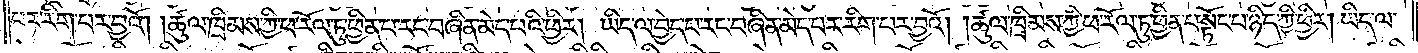པར་རིག་པར་བྱའོ། །ཚུལ་ཁྲིམས་ཀྱི་ཕ་རོལ་ཏུ་ཕྱིན་པ་རང་བཞིན་མེད་པའི་ཕྱིར། ཡིད་ལ་བྱེད་པ་རང་བཞིན་མེད་པར་རིག་པར་བྱའོ། །ཚུལ་ཁྲིམས་ཀྱི་ཕ་རོལ་ཏུ་ཕྱིན་པ་སྟོང་པ་ཉིད་ཀྱི་ཕྱིར། ཡིད་ལ་
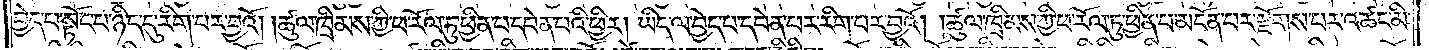བྱེད་པ་སྟོང་པ་ཉིད་དུ་རིག་པར་བྱའོ། །ཚུལ་ཁྲིམས་ཀྱི་ཕ་རོལ་ཏུ་ཕྱིན་པ་དབེན་པའི་ཕྱིར། ཡིད་ལ་བྱེད་པ་དབེན་པར་རིག་པར་བྱའོ། །ཚུལ་ཁྲིམས་ཀྱི་ཕ་རོལ་ཏུ་ཕྱིན་པ་མངོན་པར་རྫོགས་པར་འཚང་མི་
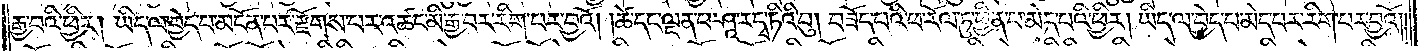རྒྱ་བའི་ཕྱིར། ཡིད་ལ་བྱེད་པ་མངོན་པར་རྫོགས་པར་འཚང་མི་རྒྱ་བར་རིག་པར་བྱའོ། །ཚེ་དང་ལྡན་པ་ཤཱ་ར་དྭ་ཏིའི་བུ། བཟོད་པའི་ཕ་རོལ་ཏུ་ཕྱིན་པ་མེད་པའི་ཕྱིར། ཡིད་ལ་བྱེད་པ་མེད་པར་རིག་པར་བྱའོ། །
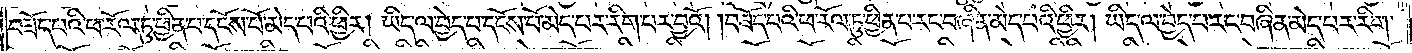བཟོད་པའི་ཕ་རོལ་ཏུ་ཕྱིན་པ་དངོས་པོ་མེད་པའི་ཕྱིར། ཡིད་ལ་བྱེད་པ་དངོས་པོ་མེད་པར་རིག་པར་བྱའོ། །བཟོད་པའི་ཕ་རོལ་ཏུ་ཕྱིན་པ་རང་བཞིན་མེད་པའི་ཕྱིར། ཡིད་ལ་བྱེད་པ་རང་བཞིན་མེད་པར་རིག་
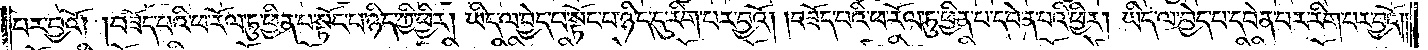པར་བྱའོ། །བཟོད་པའི་ཕ་རོལ་ཏུ་ཕྱིན་པ་སྟོང་པ་ཉིད་ཀྱི་ཕྱིར། ཡིད་ལ་བྱེད་པ་སྟོང་པ་ཉིད་དུ་རིག་པར་བྱའོ། །བཟོད་པའི་ཕ་རོལ་ཏུ་ཕྱིན་པ་དབེན་པའི་ཕྱིར། ཡིད་ལ་བྱེད་པ་དབེན་པར་རིག་པར་བྱའོ། །
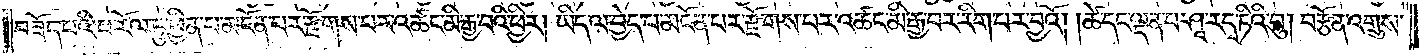བཟོད་པའི་ཕ་རོལ་ཏུ་ཕྱིན་པ་མངོན་པར་རྫོགས་པར་འཚང་མི་རྒྱ་བའི་ཕྱིར། ཡིད་ལ་བྱེད་པ་མངོན་པར་རྫོགས་པར་འཚང་མི་རྒྱ་བར་རིག་པར་བྱའོ། །ཚེ་དང་ལྡན་པ་ཤཱ་ར་དྭ་ཏིའི་བུ། བརྩོན་འགྲུས་
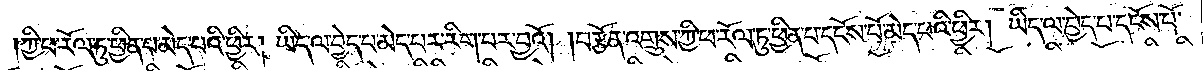ཀྱི་ཕ་རོལ་ཏུ་ཕྱིན་པ་མེད་པའི་ཕྱིར། ཡིད་ལ་བྱེད་པ་མེད་པར་རིག་པར་བྱའོ། །བརྩོན་འགྲུས་ཀྱི་ཕ་རོལ་ཏུ་ཕྱིན་པ་དངོས་པོ་མེད་པའི་ཕྱིར། ཡིད་ལ་བྱེད་པ་དངོས་པོ་
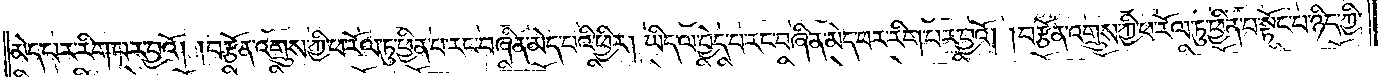མེད་པར་རིག་པར་བྱའོ། །བརྩོན་འགྲུས་ཀྱི་ཕ་རོལ་ཏུ་ཕྱིན་པ་རང་བཞིན་མེད་པའི་ཕྱིར། ཡིད་ལ་བྱེད་པ་རང་བཞིན་མེད་པར་རིག་པར་བྱའོ། །བརྩོན་འགྲུས་ཀྱི་ཕ་རོལ་ཏུ་ཕྱིན་པ་སྟོང་པ་ཉིད་ཀྱི་
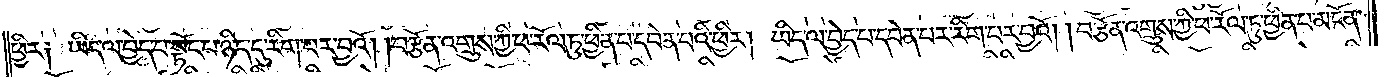ཕྱིར། ཡིད་ལ་བྱེད་པ་སྟོང་པ་ཉིད་དུ་རིག་པར་བྱའོ། །བརྩོན་འགྲུས་ཀྱི་ཕ་རོལ་ཏུ་ཕྱིན་པ་དབེན་པའི་ཕྱིར། ཡིད་ལ་བྱེད་པ་དབེན་པར་རིག་པར་བྱའོ། །བརྩོན་འགྲུས་ཀྱི་ཕ་རོལ་ཏུ་ཕྱིན་པ་མངོན་
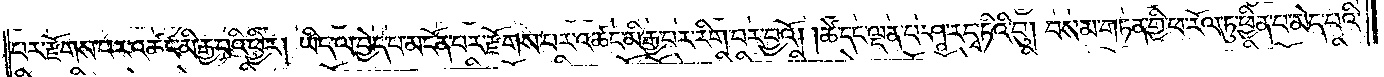པར་རྫོགས་པར་འཚང་མི་རྒྱ་བའི་ཕྱིར། ཡིད་ལ་བྱེད་པ་མངོན་པར་རྫོགས་པར་འཚང་མི་རྒྱ་བར་རིག་པར་བྱའོ། །ཚེ་དང་ལྡན་པ་ཤཱ་ར་དྭ་ཏིའི་བུ། བསམ་གཏན་གྱི་ཕ་རོལ་ཏུ་ཕྱིན་པ་མེད་པའི་
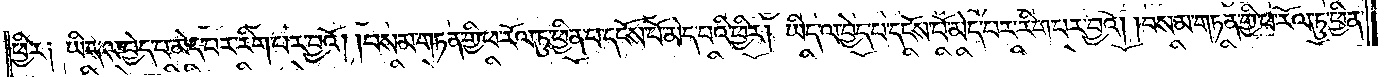ཕྱིར༏ ཡིད་ལ་བྱེད་པ་མེད་པར་རིག་པར་བྱའོ། །བསམ་གཏན་གྱི་ཕ་རོལ་ཏུ་ཕྱིན་པ་དངོས་པོ་མེད་པའི་ཕྱིར། ཡིད་ལ་བྱེད་པ་དངོས་པོ་མེད་པར་རིག་པར་བྱའོ། །བསམ་གཏན་གྱི་ཕ་རོལ་ཏུ་ཕྱིན་
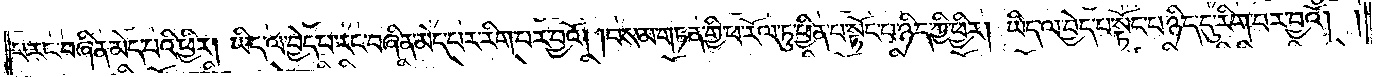པ་རང་བཞིན་མེད་པའི་ཕྱིར། ཡིད་ལ་བྱེད་པ་རང་བཞིན་མེད་པར་རིག་པར་བྱའོ། །བསམ་གཏན་གྱི་ཕ་རོལ་ཏུ་ཕྱིན་པ་སྟོང་པ་ཉིད་ཀྱི་ཕྱིར། ཡིད་ལ་བྱེད་པ་སྟོང་པ་ཉིད་དུ་རིག་པར་བྱའོ། །
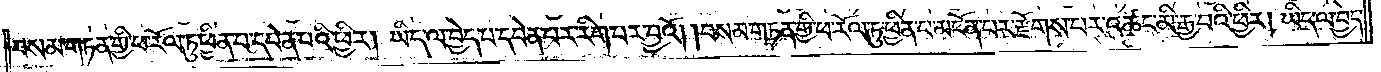བསམ་གཏན་གྱི་ཕ་རོལ་ཏུ་ཕྱིན་པ་དབེན་པའི་ཕྱིར། ཡིད་ལ་བྱེད་པ་དབེན་པར་རིག་པར་བྱའོ། །བསམ་གཏན་གྱི་ཕ་རོལ་ཏུ་ཕྱིན་པ་མངོན་པར་རྫོགས་པར་འཚང་མི་རྒྱ་བའི་ཕྱིར། ཡིད་ལ་བྱེད་
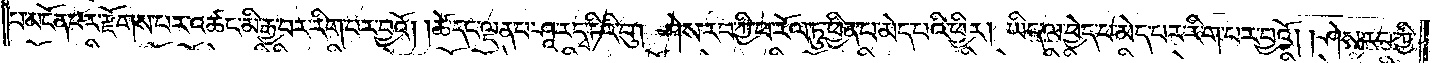པ་མངོན་པར་རྫོགས་པར་འཚང་མི་རྒྱ་བར་རིག་པར་བྱའོ། །ཚེ་དང་ལྡན་པ་ཤཱ་ར་དྭ་ཏིའི་བུ། ཤེས་རབ་ཀྱི་ཕ་རོལ་ཏུ་ཕྱིན་པ་མེད་པའི་ཕྱིར། ཡིད་ལ་བྱེད་པ་མེད་པར་རིག་པར་བྱའོ། །ཤེས་རབ་ཀྱི་
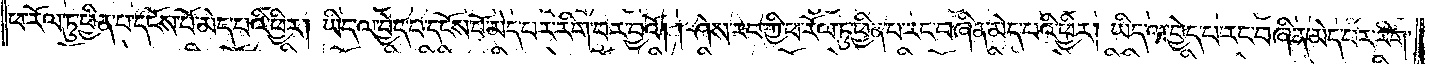ཕ་རོལ་ཏུ་ཕྱིན་པ་དངོས་པོ་མེད་པའི་ཕྱིར། ཡིད་ལ་བྱེད་པ་དངོས་པོ་མེད་པར་རིག་པར་བྱའོ། །ཤེས་རབ་ཀྱི་ཕ་རོལ་ཏུ་ཕྱིན་པ་རང་བཞིན་མེད་པའི་ཕྱིར། ཡིད་ལ་བྱེད་པ་རང་བཞིན་མེད་པར་རིག་
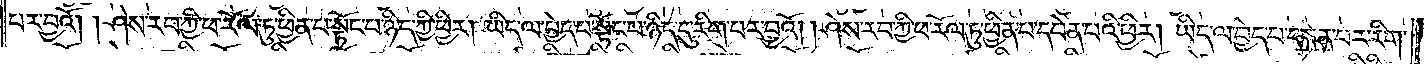པར་བྱའོ། །ཤེས་རབ་ཀྱི་ཕ་རོལ་ཏུ་ཕྱིན་པ་སྟོང་པ་ཉིད་ཀྱི་ཕྱིར། ཡིད་ལ་བྱེད་པ་སྟོང་པ་ཉིད་དུ་རིག་པར་བྱའོ། །ཤེས་རབ་ཀྱི་ཕ་རོལ་ཏུ་ཕྱིན་པ་དབེན་པའི་ཕྱིར། ཡིད་ལ་བྱེད་པ་དབེན་པར་རིག་
